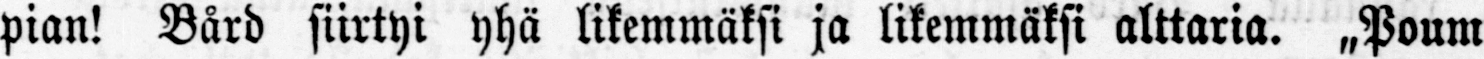pian! Bård siirtyi yhä likemmäksi ja likemmäksi alttaria. „Poum
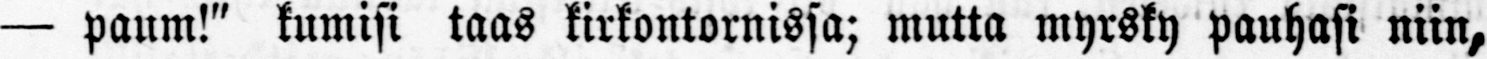— paum!" kumisi taas kirkontornissa; mutta myrsky pauhasi niin,
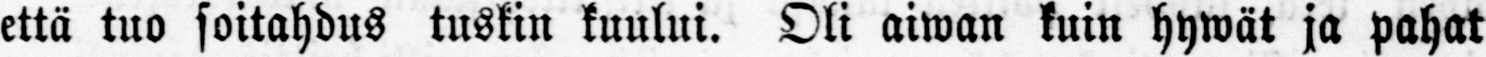että tuo soitahdus tuskin kuului. Oli aiwan kuin hywät ja pahat
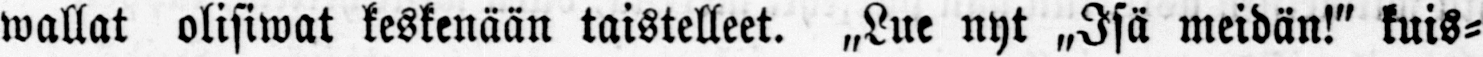wallat olisiwat keskenään taistelleet. „Lue nyt „Isä meidän!" kuis-
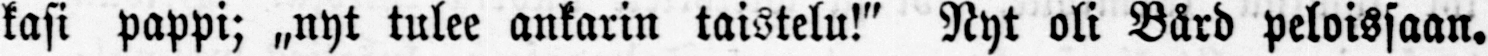kasi pappi; „nyt tulee ankarin taistelu!" Nyt oli Bård peloissaan.
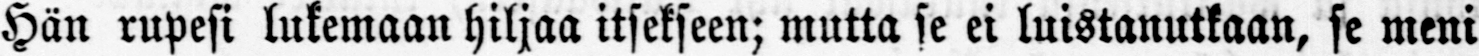Hän rupesi lukemaan hiljaa itsekseen; mutta se ei luistanutkaan, se meni
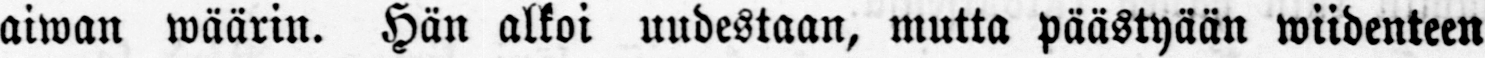aiwan wäärin. Hän alkoi uudestaan, mutta päästyään wiidenteen
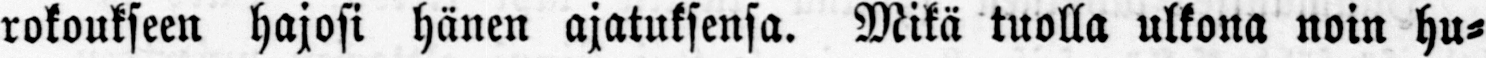rokoukseen hajosi hänen ajatuksensa. Mikä tuolla ulkona noin hu-
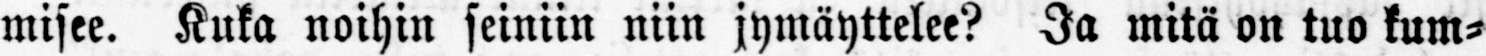misee. Kuka noihin seiniin niin jymäyttelee? Ja mitä on tuo kum-
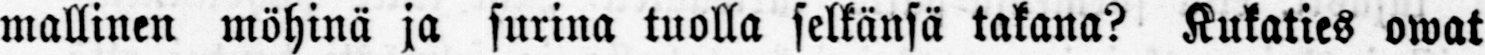mallinen möhinä ja surina tuolla selkänsä takana? Kukaties owat
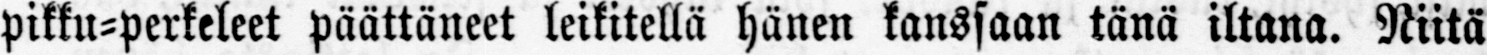pikku-perkeleet päättäneet leikitellä hänen kanssaan tänä iltana. Niitä
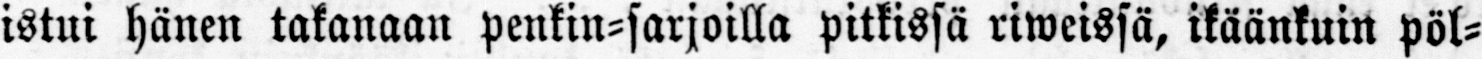istui hänen takanaan penkin-sarjoilla pitkissä riweissä, ikäänkuin pöl-
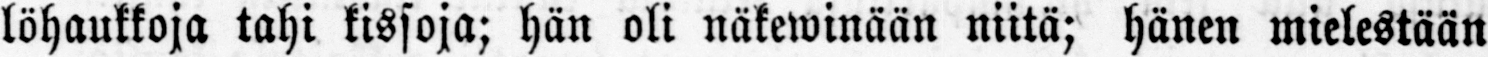löhaukkoja tahi kissoja; hän oli näkewinään niitä; hänen mielestään
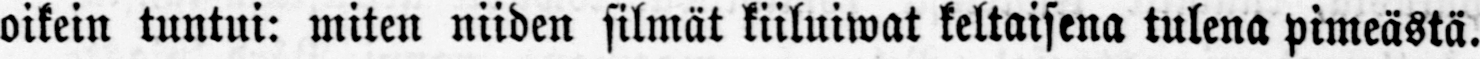oikein tuntui: miten niiden silmät kiiluiwat keltaisena tulena pimeästä.
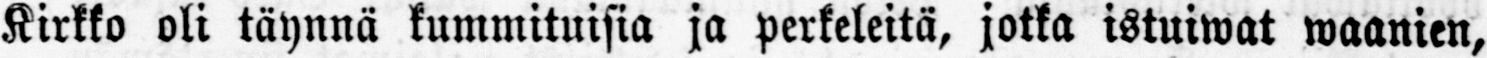Kirkko oli täynnä kummituisia ja perkeleitä, jotka istuiwat waanien,
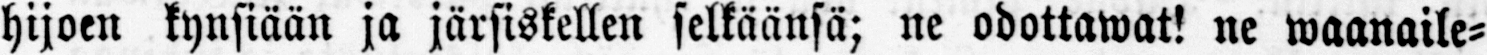hijoen kynsiään ja järsiskellen selkäänsä; ne odottawat! ne waanaile-
